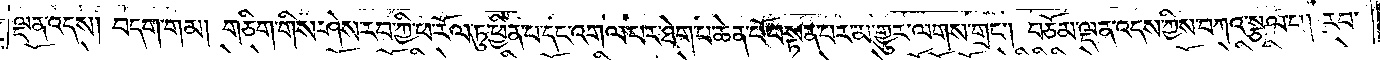ལྡན་འདས། བདག་གམ། གཅིག་གིས་ཤེས་རབ་ཀྱི་ཕ་རོལ་ཏུ་ཕྱིན་པ་དང་འགལ་བར་ཐེག་པ་ཆེན་པོ་བསྟན་པར་མ་གྱུར་ལགས་གྲང༌། བཅོམ་ལྡན་འདས་ཀྱིས་བཀའ་སྩལ་པ། རབ་
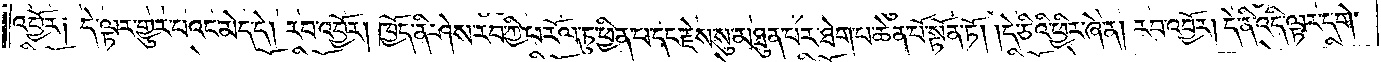འབྱོར། དེ་ལྟར་གྱུར་བའང་མེད་དོ། རབ་འབྱོར། ཁྱོད་ནི་ཤེས་རབ་ཀྱི་ཕ་རོལ་ཏུ་ཕྱིན་པ་དང་རྗེས་སུ་མཐུན་པར་ཐེག་པ་ཆེན་པོ་སྟོན་ཏོ། །དེ་ཅིའི་ཕྱིར་ཞེ་ན། རབ་འབྱོར། དེ་ནི་འདི་ལྟར་དགེ་
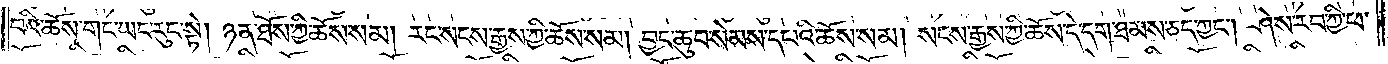བའི་ཆོས་གང་ཡང་རུང་སྟེ། ཉན་ཐོས་ཀྱི་ཆོས་སམ། རང་སངས་རྒྱས་ཀྱི་ཆོས་སམ། བྱང་ཆུབ་སེམས་དཔའི་ཆོས་སམ། སངས་རྒྱས་ཀྱི་ཆོས་དེ་དག་ཐམས་ཅད་ཀྱང༌། ཤེས་རབ་ཀྱི་ཕ་
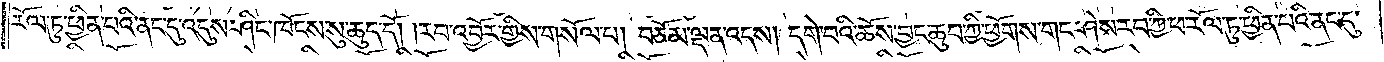རོལ་ཏུ་ཕྱིན་པའི་ནང་དུ་འདུས་ཤིང་ཁོངས་སུ་ཆུད་དོ། །རབ་འབྱོར་གྱིས་གསོལ་བ། བཅོམ་ལྡན་འདས། དགེ་བའི་ཆོས་བྱང་ཆུབ་ཀྱི་ཕྱོགས་གང་ཤེས་རབ་ཀྱི་ཕ་རོལ་ཏུ་ཕྱིན་པའི་ནང་དུ་
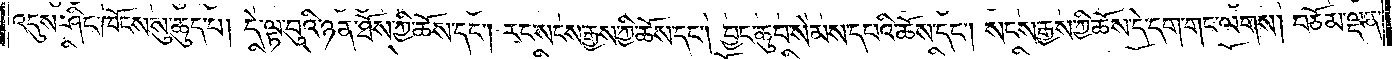འདུས་ཤིང་ཁོངས་སུ་ཆུད་པ། དེ་ལྟ་བུའི་ཉན་ཐོས་ཀྱི་ཆོས་དང༌། རང་སངས་རྒྱས་ཀྱི་ཆོས་དང༌། བྱང་ཆུབ་སེམས་དཔའི་ཆོས་དང༌། སངས་རྒྱས་ཀྱི་ཆོས་དེ་དག་གང་ལགས། བཅོམ་ལྡན་
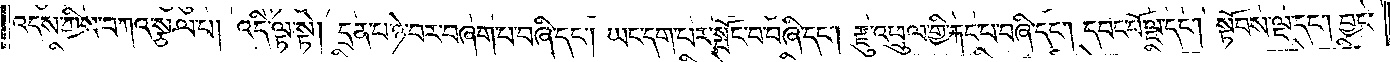འདས་ཀྱིས་བཀའ་སྩལ་བ། འདི་ལྟ་སྟེ། དྲན་པ་ཉེ་བར་བཞག་པ་བཞི་དང༌། ཡང་དག་པར་སྤོང་བ་བཞི་དང༌། རྫུ་འཕྲུལ་གྱི་རྐང་པ་བཞི་དང༌། དབང་པོ་ལྔ་དང༌། སྟོབས་ལྔ་དང༌། བྱང་
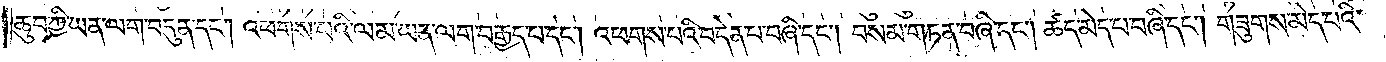ཆུབ་ཀྱི་ཡན་ལག་བདུན་དང༌། འཕགས་པའི་ལམ་ཡན་ལག་བརྒྱད་པ་དང༌། འཕགས་པའི་བདེན་པ་བཞི་དང༌། བསམ་གཏན་བཞི་དང༌། ཚད་མེད་པ་བཞི་དང༌། གཟུགས་མེད་པའི་
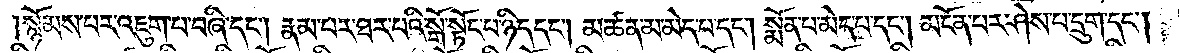སྙོམས་པར་འཇུག་པ་བཞི་དང༌། རྣམ་པར་ཐར་པའི་སྒོ་སྟོང་བ་ཉིད་དང༌། མཚན་མ་མེད་པ་དང༌། སྨོན་པ་མེད་པ་དང༌། མངོན་པར་ཤེས་པ་དྲུག་དང༌།
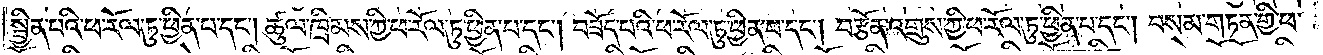སྦྱིན་པའི་ཕ་རོལ་ཏུ་ཕྱིན་པ་དང༌། ཚུལ་ཁྲིམས་ཀྱི་ཕ་རོལ་ཏུ་ཕྱིན་པ་དང༌། བཟོད་པའི་ཕ་རོལ་ཏུ་ཕྱིན་པ་དང༌། བརྩོན་འགྲུས་ཀྱི་ཕ་རོལ་ཏུ་ཕྱིན་པ་དང༌། བསམ་གཏན་གྱི་ཕ་
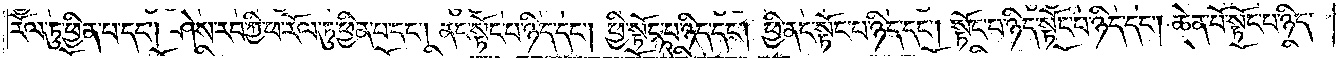རོལ་ཏུ་ཕྱིན་པ་དང༌། ཤེས་རབ་ཀྱི་ཕ་རོལ་ཏུ་ཕྱིན་པ་དང༌། ནང་སྟོང་པ་ཉིད་དང༌། ཕྱི་སྟོང་པ་ཉིད་དང༌། ཕྱི་ནང་སྟོང་པ་ཉིད་དང༌། སྟོང་པ་ཉིད་སྟོང་པ་ཉིད་དང༌། ཆེན་པོ་སྟོང་པ་ཉིད་
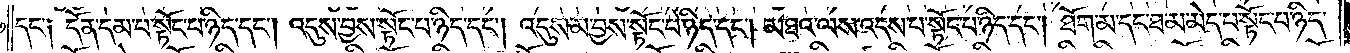དང་༑ དོན་དམ་པ་སྟོང་པ་ཉིད་དང༌། འདུས་བྱས་སྟོང་པ་ཉིད་དང༌། འདུས་མ་བྱས་སྟོང་པ་ཉིད་དང༌། མཐའ་ལས་འདས་པ་སྟོང་པ་ཉིད་དང༌། ཐོག་མ་དང་ཐ་མ་མེད་པ་སྟོང་པ་ཉིད་
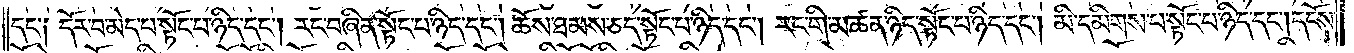དང་༑ དོར་བ་མེད་པ་སྟོང་པ་ཉིད་དང༌། རང་བཞིན་སྟོང་པ་ཉིད་དང༌། ཆོས་ཐམས་ཅད་སྟོང་པ་ཉིད་དང༌། རང་གི་མཚན་ཉིད་སྟོང་པ་ཉིད་དང༌། མི་དམིགས་པ་སྟོང་པ་ཉིད་དང༌། དངོས་
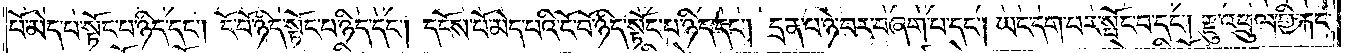པོ་མེད་པ་སྟོང་པ་ཉིད་དང༌། ངོ་བོ་ཉིད་སྟོང་པ་ཉིད་དང༌། དངོས་པོ་མེད་པའི་ངོ་བོ་ཉིད་སྟོང་པ་ཉིད་དང༌། དྲན་པ་ཉེ་བར་བཞག་པ་དང༌། ཡང་དག་པར་སྤོང་བ་དང༌། རྫུ་འཕྲུལ་གྱི་རྐང་
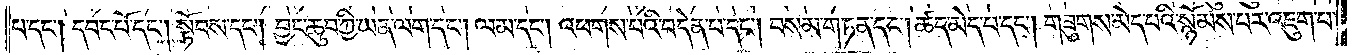པ་དང༌། དབང་པོ་དང༌། སྟོབས་དང༌། བྱང་ཆུབ་ཀྱི་ཡན་ལག་དང༌། ལམ་དང༌། འཕགས་པའི་བདེན་པ་དང༌། བསམ་གཏན་དང༌། ཚད་མེད་པ་དང༌། གཟུགས་མེད་པའི་སྙོམས་པར་འཇུག་པ་
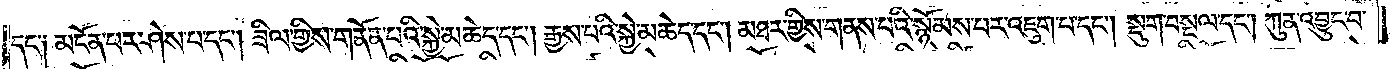དང་། མངོན་པར་ཤེས་པ་དང༌། ཟིལ་གྱིས་གནོན་པའི་སྐྱེ་མཆེད་དང༌། རྒྱས་པའི་སྐྱེ་མཆེད་དང༌། མཐར་གྱིས་གནས་པའི་སྙོམས་པར་འཇུག་པ་དང༌། སྡུག་བསྔལ་དང༌། ཀུན་འབྱུང་བ་
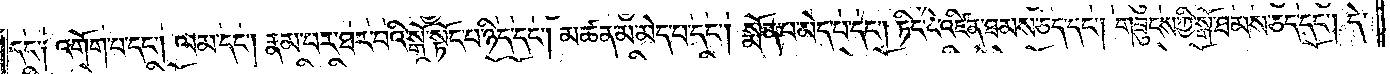དང་། འགོག་པ་དང༌། ལམ་དང༌། རྣམ་པར་ཐར་པའི་སྒོ་སྟོང་པ་ཉིད་དང༌། མཚན་མ་མེད་པ་དང༌། སྨོན་པ་མེད་པ་དང༌། ཏིང་ངེ་འཛིན་ཐམས་ཅད་དང༌། གཟུངས་ཀྱི་སྒོ་ཐམས་ཅད་དང༌། དེ་
